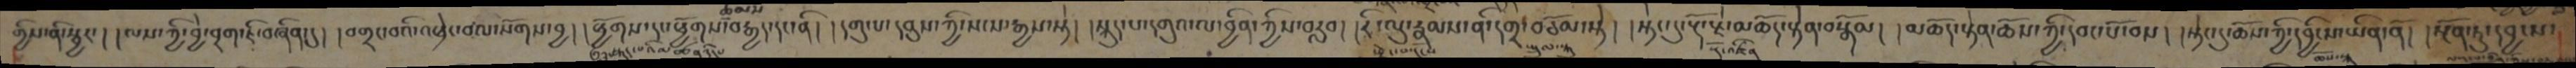གྱིས་ནི་སྦྱར་། །ལས་ཀྱི་བྱེ་བྲག་ཇི་བཞིན་དུ། །བགྲང་བའི་འཕྲེང་བ་ལ་སོགས་བྱ། །ཕྱོགས་དང་ཕྱོགས་ཚམས་བརྒྱད་དང་ནི། །དགུ་པ་དབུས་ཀྱི་སངས་རྒྱས་སྟེ། །སྐུད་པ་དགུའ་ལ་བྱིན་ཀྱིས་བརླབ། །རི་ལུ་རྣམས་ནི་དགྲ་བཅོམ་སྟེ། །སྟེང་དུ་རྡོ་རྗེ་མཆོད་རྟེན་བསྒོམ། །མཆོད་རྟེན་ཆོས་ཀྱི་དབང་པོ་བས། །སྟེང་དུ་ཆོས་ཀྱི་དབྱིངས་ཡིན་ནོ། །སྔོན་ཏུ་དབྱངས་
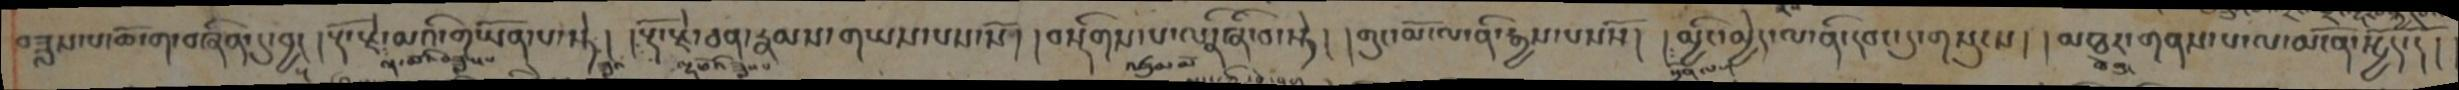བཟླས་པ་ཆོ་ག་བཞིན་དུ་བྱ། །རྡོ་རྗེ་མའི་གཡོན་པ་སྟེ། །རྡོ་རྗེ་ཅན་རྣམས་གཡས་པས་སོ། །བསྡིགས་པ་ལ་ནི་ཞི་བ་སྟེ། །གུང་མོ་ལ་ནི་རྒྱས་པས་སོ། །མྱིང་མྱེད་ལ་ནི་དབང་དུ་གསུངས། །མཐར་གནས་པ་ལ་མངོན་སྤྱོད་དོ།
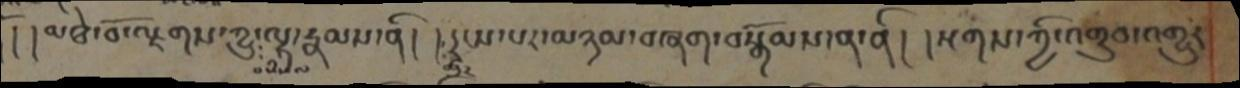།།མཐེ་བོ་ལྗགས་ཀྱུ་ལྷ་རྣམས་ནི། །དྲངས་པར་མཉམ་བཞག་བསྒོམས་ན་ནི། །སྔགས་ཀྱི་འགྲུབ་འགྱུར
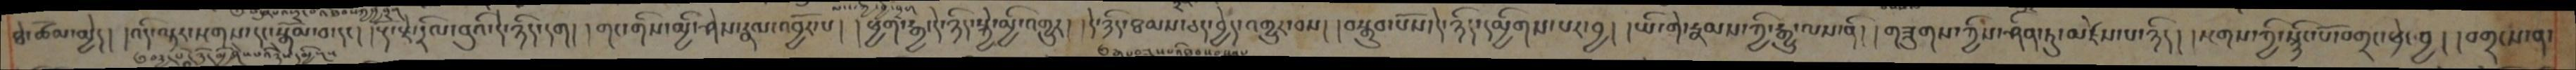ཐེ་ཚོམ་མྱེད། །འདི་ལྟར་སྔགས་དང་སྒོམ་བ་དང། །རྡོ་རྗེ་དྲིལ་བུའི་དེ་ཉིད་དག། །གང་གིས་མྱི་ཤེས་རྣལ་འབྱོར་པ། །ཕྱག་རྒྱ་དེ་ཉིད་སྐྱེ་མྱི་འགྱུར། །དེ་ཉིད་ཐམས་ཅད་བྱེད་འགྱུར་བས། །བསྒྲུབ་པོས་དེ་ཉིད་དམྱིགས་པར་བྱ། །ཡི་གེ་རྣམས་ཀྱི་རྒྱུ་ལས་ནི། །གཟུགས་ཀྱིས་ཤིན་ཏུ་མཛེས་པ་ཉིད། །སྔགས་ཀྱི་སྙིང་པོ་བགྲང་ཕྲེང་བྱ། །བགྲངས་ན་
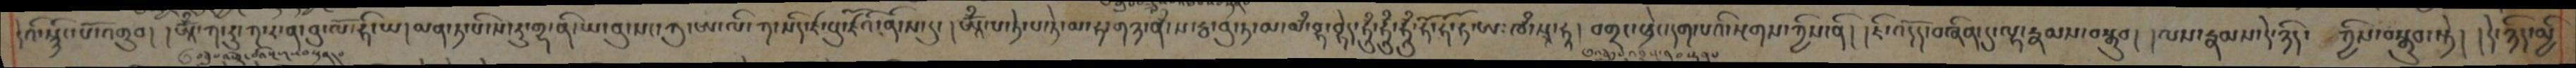དེའི་སྙིང་པོ་འགྲུབ། །ཨཱོྃ་ཀ་རུ་ཀ་ར་ན་བུ་ལོ་ཧི་ཡ།མན་ཏ་པི་ས་རུ་གྷ་ནི་ཡ་བུ་སང་ཀུ་ཨ་ལི་ཀ་སིད་ཛ་པུ་ཛོའི་ནི་ས་དུ་། ཨཱོྃ་པ་ཏེ་པ་ཏེ་མ་ཧ་གཉ་ན་ས་རྦ་བུ་ཏ་མ་མྃ་བྷ་བྷེད་ཧཱུྃ་ཧཱུྃ་ཧཱུྃ་ཧོ་ཧོ་ཧོ་ཨ་ཁཾ་སྭཱ་ཧཱ། བགྲང་ཕྲེང་དག་པའི་སྔགས་ཀྱིས་ནི། །ཇི་འདོད་བཞིན་དུ་ལྷ་རྣམས་བསྒྲུབ། །ལས་རྣམས་དེ་ཉིད་ཀྱིས་བསྒྲུབ་སྟེ། །དེ་ཉིད་མྱི
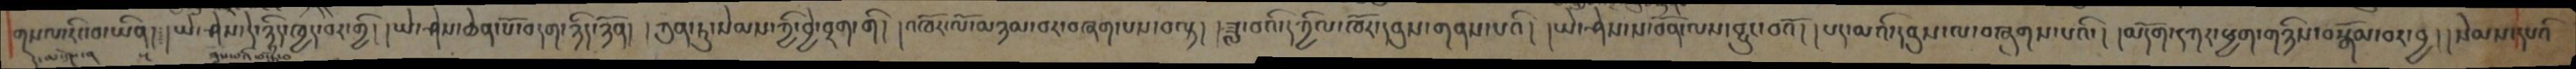གསལ་རིང་བ་ཡིན། ༴།ཡེ་ཤེས་དེ་ཉིད་ཁྱད་བར་གྱི། །ཡེ་ཤེས་ཆེན་པོ་བདག་ཉིད་ཉོན། །ཀུན་ཏུ་སེམས་ཀྱི་བྱེ་བྲག་གི། །འཁོར་ལོ་མཉམ་བར་བཞག་པས་བལྟ། །ཟླ་བའི་དཀྱིལ་འཁོར་དབུས་གནས་པའི། །ཡེ་ཤེས་ས་བོན་ལས་བྱུང་བའོ། །པད་མའི་དབུས་ལ་བཞུགས་པའི། །མདོག་དཀར་ཕྱག་གཉིས་བསྒོམ་བར་བྱ། །སེམས་དཔའི
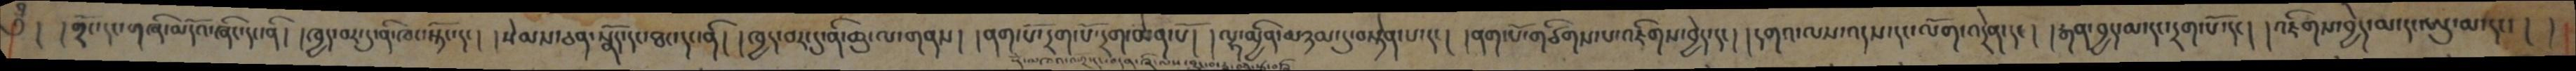༄ྃ ། །གྲོང་དང་གཞི་མདོའ་ཞིང་དང་ནི། །ཁྱད་བར་དུ་ནི་ཁང་སྟོང་དང། །སེམས་ཅན་སྣོད་དང་ཐང་དང་ནི། །ཁྱད་བར་དུ་ནི་ཆུ་ལ་གནས། །ནག་པོ་དྲག་པོ་དྲག་ཆེན་པོ། །ལྷ་མྱིན་མཉམ་དུ་བསྟེན་པ་དང། །ནག་པོ་གཙིགས་པ་འཇིགས་བྱེད་དང། །དགའ་ལས་འདས་དང་ལོག་འདྲེན་དང། །རྒན་བྱད་མ་དང་དྲག་པོ་དང། །འཇིགས་བྱེད་མ་དང་ཨུ་མ་དང་ ། །
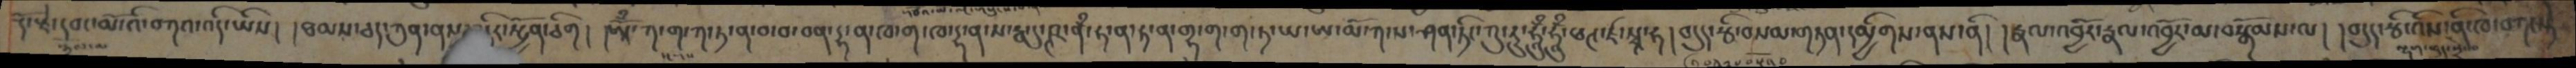རྡོ་རྗེ་དབང་མོ་འི་བཀའ་འདི་ཡིས། །ཐམས་ཅད་ཀུན་ནས་འདིར་སྦྱིན་ཅིག། །ཨཱོྃ་ཀ་ག་ཀ་ཏ་ན་བ་བ་བན་དྷ་ན་ཁ་ག་ཁ་དྷ་ན་ས་རྦ་དུ་ཥྚ་ནྃ་ཧ་ན་ཧ་ན་གྷ་ག་ག་ཏ་ཡ་ཨ་མོ་ཀ་ས་ཤན་ཏིང་ཀུ་རུ་ཧཱུྃ་ཧཱུྃ་ཕཊ་ཛ་སྭཱ་ཧ། བདུད་རྩི་བསམ་གཏན་དམྱིགས་ནས་ནི། །རྣལ་འབྱོར་རྣལ་འབྱོར་མ་བསྒོམས་ལ། །བདུད་རྩི་འིས་ནི་ཁ་བཀང་སྟེ་
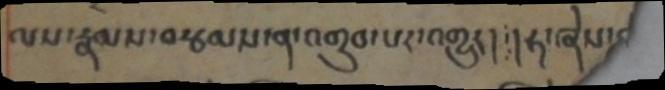ལས་རྣམས་བརྩམས་ན་འགྲུབ་པར་འགྱུར། ༴ །ཧ་ཞེས་
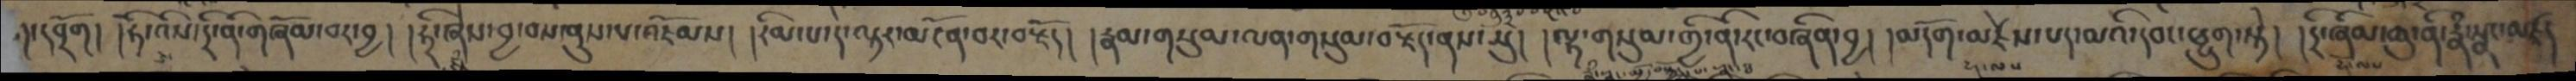ཀ་དབྲོག། །ཧེ་འིས་དྲི་ནི་གཞོམ་བར་བྱ། །ཧྲི་ཞེས་བྱ་བས་ནུས་པ་འཇོམས། །རིམ་པ་དེ་ལྟར་མངོན་བར་བརྗོད། །རྣམ་གསུམ་ལན་གསུམ་བརྗོད་ནས་སུ། །ལྷ་གསུམ་གྱི་ནི་རང་བཞིན་བྱ། །མདོག་མཛེས་པད་མའི་དབང་ཕྱུག་སྟེ། །དྲི་ཞིམ་ཆུ་ནི་རྣཾ་སྣང་མཛད
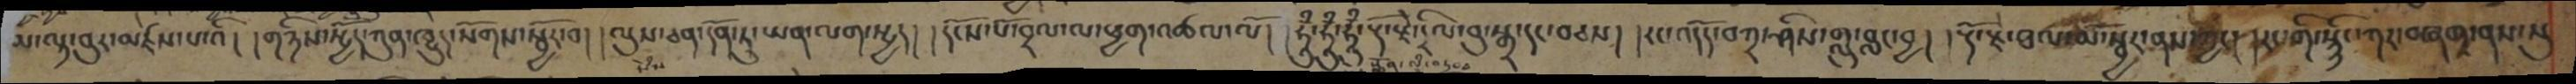མ་ལྟ་བུར་མཛེས་པ་འི། །གཉིས་སྤྱོད་ཀུན་ཁྱུད་སོགས་སྦྱོར་བ། །ལུས་ཅན་དོན་ཏུ་ཡན་ལག་སྤྱད། །དངོས་པོ་བྲལ་ལ་ཕྱག་འཚལ་ལོ། །ཧཱུྃ་ཧཱུྃ་ཧཱུྃ་རྡོ་རྗེ་དྲིལ་བུ་སྒྲ་དང་བཅས། །རང་འདོད་བཀྲ་ཤིས་གླུ་བླང་བྱ། །རྡོ་རྗེ་ཐལ་མོ་སྦྱར་ནས་ཀྱང། །རང་གི་སྙིང་ཀར་བཞག་ནས་སུ
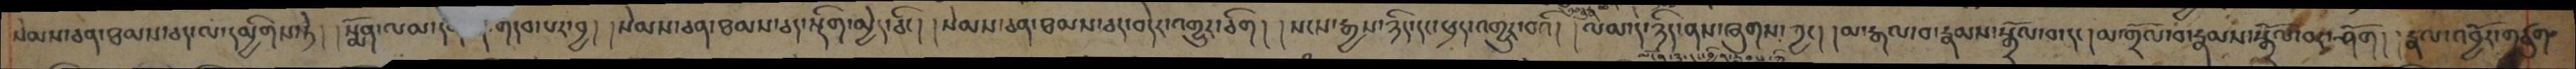སེམས་ཅན་ཐམས་ཅད་ལ་དམྱིགས་ཏེ། །སྨོན་ལམ་དོན་དེ་གདབ་པར་བྱ། །སེམས་ཅན་ཐམས་ཅད་སྡིག་མྱེད་ཅིང། །སེམས་ཅན་ཐམས་ཅད་བདེར་འགྱུར་ཅིག། །སངས་རྒྱས་ཉིད་དང་ཕྲད་འགྱུར་བའི། །ལམ་དེ་ཉིད་ནས་ཞུགས་ཀྱང། །མ་རྒལ་བ་རྣམས་སྒྲོལ་བ་དང། །མ་གྲོལ་བ་རྣམས་སྒྲོལ་བར་ཤོག། །རྣལ་འབྱོར་གཙུག
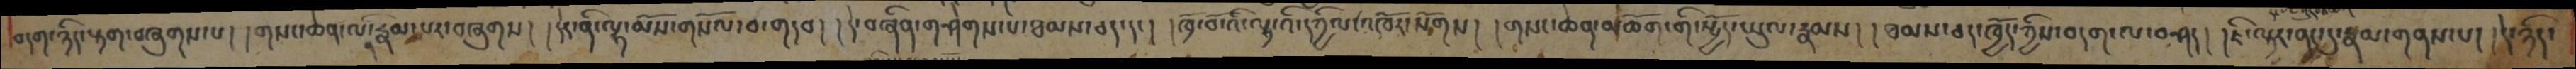བདག་ཉིད་རྟག་བཞུགས་པ། །གསང་ཆེན་ལ་ནི་རྣམ་པར་བཞུགས། །དེར་ནི་ལྷ་མོས་གསོལ་བ་གདབ། །དེ་བཞིན་གཤེགས་པ་ཐམས་ཅད་དང། །ཁྲོ་བོ་འི་ལྷ་འི་དཀྱིལ་འཁོར་སོགས། །གསང་ཆེན་མཆོག་གི་སྤྱོད་ཡུལ་རྣམས། །ཐམས་ཅད་ཁྱོད་ཀྱིས་བདག་ལ་བཤད། །ཇི་ལྟར་ནང་དུ་རྣམ་གནས་པ། །དེ་ཉིད
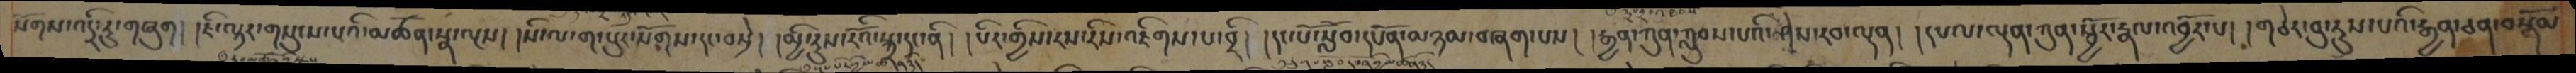སོགས་འདྲི་རུ་གཞུག། །ཇི་ལྟར་གསུངས་པའི་མཚོན་སྣ་ལྔས། །སི་ལ་ག་པུར་སོགས་དང་བསྲེ། །མྱི་རུས་རོའི་སྐྲ་དང་ནི། །པིར་གྱིས་རས་རིས་འཇིགས་པ་བྲི། །དང་པོ་སློབ་དཔོན་མཉམ་བཞག་པས། །རྒྱན་ཀུན་ཀླུབས་པའི་ཤེས་རབ་ལྡན། །དཔལ་ལྡན་ཀུན་སྦྱོར་རྣལ་འབྱོར་པ། །གཅེར་བུ་རུས་པའི་རྒྱན་ཅན་བསྒོམ
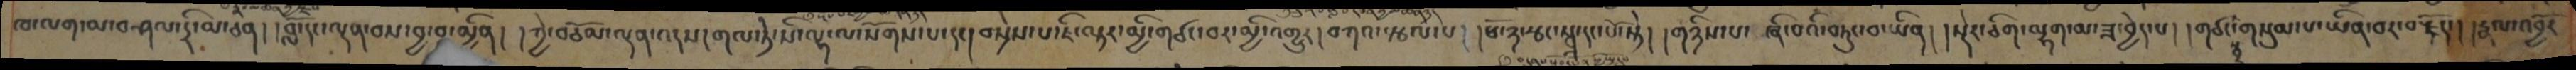ཁ་ལག་མ་བཤལ་དྲི་མ་ཅན། །བློ་དང་ལྡན་བས་བྱ་བ་མྱིན། །ཀྱེ་བཅོམ་ལྡན་འདས།གལ་ཏེ་སི་ལྷ་ལ་སོགས་པ་དང། བསྲེས་པ་ཇི་ལྟར་མྱི་གཙང་བར་མྱི་འགྱུར། བཀའ་སྩལ་པ། །ཕོ་ཉ་རྩང་སྦྲ་དང་པོ་སྟེ། །གཉིས་པ་ཞི་བའི་བཏུང་བ་ཡིན། །སྡེར་ཅིག་ལྷག་མ་ཟ་བྱེད་པ། །གཙང་སྦྲ་གསུམ་པ་ཡིན་བར་བརྗོད། །རྣལ་འབྱོར་
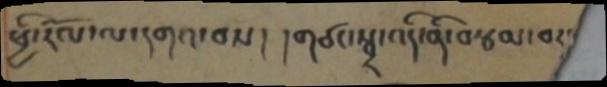ཕྱི་རོལ་ལ་དགའ་བས ། །གཙང་སྦྲ་འདི་ནི་བརྩམ་བར
